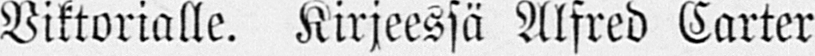Viktorialle, kirjeessä Alfred Carter
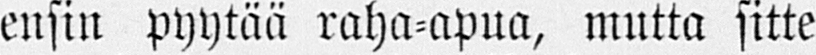ensin pyytää raha-apua, mutta sitte
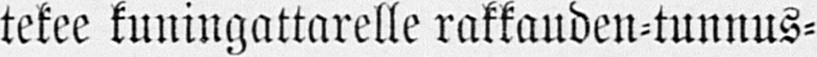tekee kuningattarelle rakkanden-tunnus-
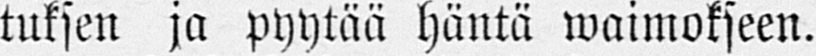tuksen ja pyytää häntä waimokseen.
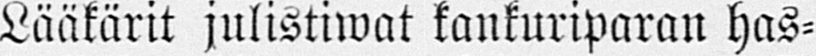Lääkärit julistiwat kankuriparan has-
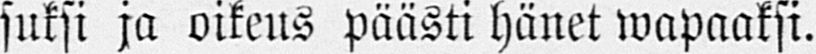suksi ja oikeus päästi hänet wapaaksi.
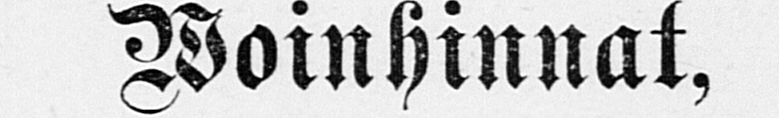Woinhinnat,
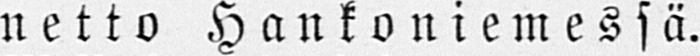netto Hankoniemessä.
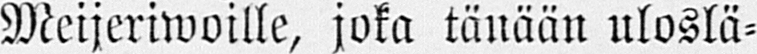Meijeriwoille, joka tänään uloslä-
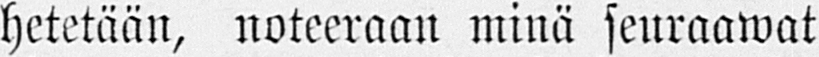hetetään, noteeraan minä seuraawat
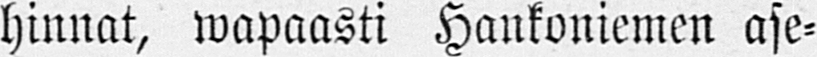hinnat, wapaasti Hankoniemen ase-
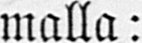malla:
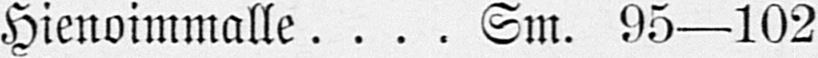Hienoimmalle Sm. 95—102
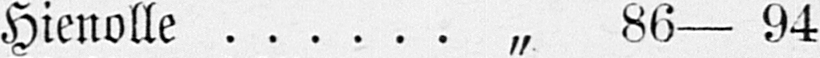Hienolle „ 86— 94
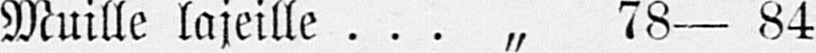Muille lajeille „ 78— 84
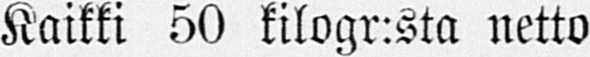Kaikki 50 kilogr:sta netto
